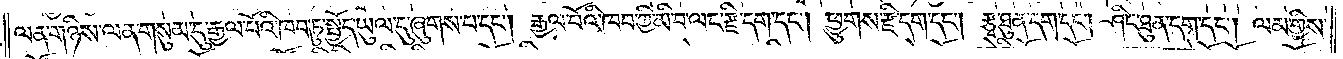ལན་གཉིས་ལན་གསུམ་དུ་རྒྱལ་པོའི་ཁབ་ཏུ་སྤྱོད་ཡུལ་དུ་ཞུགས་པ་དང༌། རྒྱལ་པོའི་ཁབ་ཀྱི་མི་བ་ལང་རྫི་དག་དང༌། ཕྱུགས་རྫི་དག་དང༌། རྩྭ་ཐུན་དག་དང༌། ཤིང་ཐུན་དག་དང༌། ལམ་གྱིས་
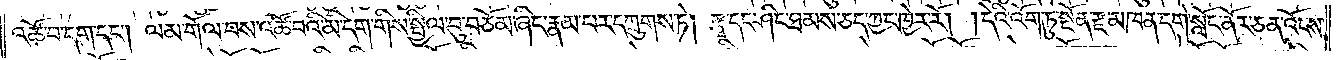འཚོ་བ་དག་དང༌། ལམ་གོལ་བས་འཚོ་བའི་མི་དག་གིས་སྤྱིལ་བུ་བཅོམ་ཞིང་རྣམ་པར་དཀྲུགས་ཏེ། རྩྭ་དང་ཤིང་ཐམས་ཅད་ཀྱང་ཁྱེར་རོ། །དེའི་འོག་ཏུ་སྔོན་རྫ་མཁན་དགེ་སློང་ནོར་ཅན་འོངས་
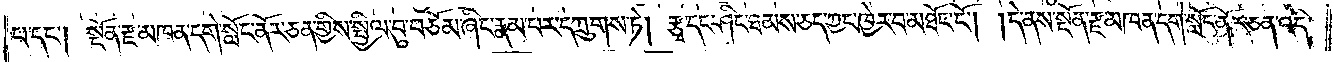པ་དང༌། སྔོན་རྫ་མཁན་དགེ་སློང་ནོར་ཅན་གྱིས་སྤྱིལ་བུ་བཅོམ་ཞིང་རྣམ་པར་དཀྲུགས་ཏེ། རྩྭ་དང་ཤིང་ཐམས་ཅད་ཀྱང་ཁྱེར་བ་མཐོང་ངོ༌། །དེ་ནས་སྔོན་རྫ་མཁན་དགེ་སློང་ནོར་ཅན་འདི་
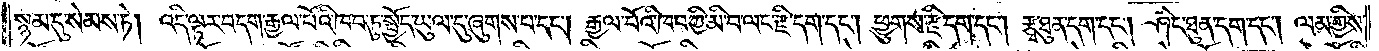སྙམ་དུ་སེམས་ཏེ། འདི་ལྟར་བདག་རྒྱལ་པོའི་ཁབ་ཏུ་སྤྱོད་ཡུལ་དུ་ཞུགས་པ་དང༌། རྒྱལ་པོའི་ཁབ་ཀྱི་མི་བ་ལང་རྫི་དག་དང༌། ཕྱུགས་རྫི་དག་དང༌། རྩྭ་ཐུན་དག་དང༌། ཤིང་ཐུན་དག་དང༌། ལམ་གྱིས་
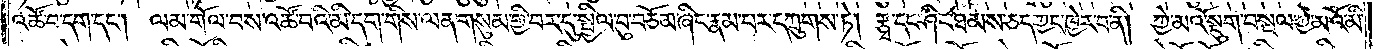འཚོ་བ་དག་དང༌། ལམ་གོལ་བས་འཚོ་བའི་མི་དག་གིས་ལན་གསུམ་གྱི་བར་དུ་སྤྱིལ་བུ་བཅོམ་ཞིང་རྣམ་པར་དཀྲུགས་ཏེ། རྩྭ་དང་ཤིང་ཐམས་ཅད་ཀྱང་ཁྱེར་བ་ནི། ཀྱེ་མའོ་སྡུག་བསྔལ་ཀྱེ་མའོ་མི་
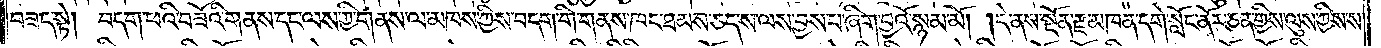བཟང་སྟེ། བདག་ཕའི་བཟོའི་གནས་དང་ལས་ཀྱི་གནས་ལ་མཁས་ཀྱིས་བདག་གི་གནས་ཁང་ཐམས་ཅད་ས་ལས་བྱས་པ་ཞིག་བྱའོ་སྙམ་མོ། །དེ་ནས་སྔོན་རྫ་མཁན་དགེ་སློང་ནོར་ཅན་གྱིས་ལུས་ཀྱིས་ས་
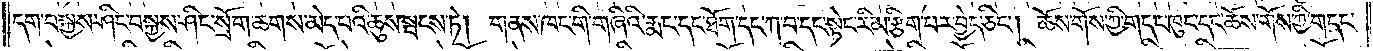དག་བསྐྱས་ཤིང་བསྐྱས་ཤིང་སྲོག་ཆགས་མེད་པའི་ཆུས་སྦངས་ཏེ། གནས་ཁང་གི་གཞིའི་རྨང་དང་ཐོག་དང་ཀ་བ་དང་སྟེང་རིམ་རྩིག་པར་བྱེད་ཅིང༌། ཆོས་གོས་ཀྱི་གདང་ཁུང་དང་ཆོས་གོས་ཀྱི་གདང་
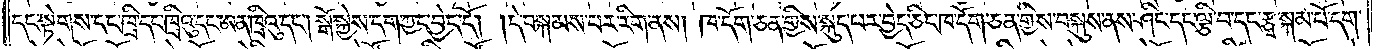དང་སྟེགས་དང་ཁྲི་དང་ཁྲིའུ་དང་ཨན་ཁྲིའུ་དང༌། སྒོ་སྐྱེས་དག་ཀྱང་བྱེད་དོ། །དེ་བསྐམས་པར་རིག་ནས། ཁ་དོག་ཅན་གྱིས་སྐུད་པར་བྱེད་ཅིང་ཁ་དོག་ཅན་གྱིས་བསྐུས་ནས་ཤིང་དང་ལྕི་བ་དང་རྩྭ་སྐམ་པོ་དག་
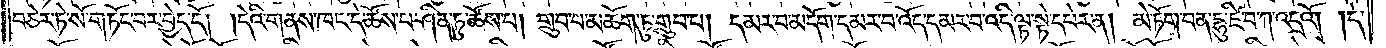བཅེར་ཏེ་སོ་གཏོང་བར་བྱེད་དོ། །དེའི་གནས་ཁང་དེ་ཚོས་པ་ཤིན་ཏུ་ཚོས་པ། གྲུབ་པ་མཆོག་ཏུ་གྲུབ་པ། དམར་བ་མདོག་དམར་བ་འོད་དམར་བ་འདི་ལྟ་སྟེ་དཔེར་ན། མེ་ཏོག་བན་དྷུ་ཛི་བ་ཀ་འདྲའོ། །དེ་
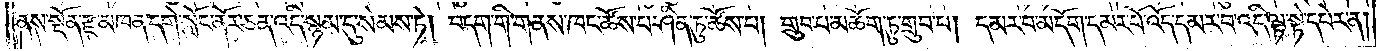ནས་སྔོན་རྫ་མཁན་དགེ་སློང་ནོར་ཅན་འདི་སྙམ་དུ་སེམས་ཏེ། བདག་གི་གནས་ཁང་ཚོས་པ་ཤིན་ཏུ་ཚོས་པ། གྲུབ་པ་མཆོག་ཏུ་གྲུབ་པ། དམར་བ་མདོག་དམར་པོ་འོད་དམར་བ་འདི་ལྟ་སྟེ་དཔེར་ན།
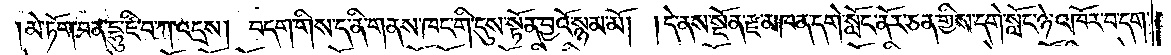།མེ་ཏོག་བན་དྷུ་ཛི་བ་ཀ་འདྲས། བདག་གིས་ད་ནི་གནས་ཁང་གི་དུས་སྟོན་བྱའོ་སྙམ་མོ། །དེ་ནས་སྔོན་རྫ་མཁན་དགེ་སློང་ནོར་ཅན་གྱིས་དགེ་སློང་ཉེ་འཁོར་བ་དག་
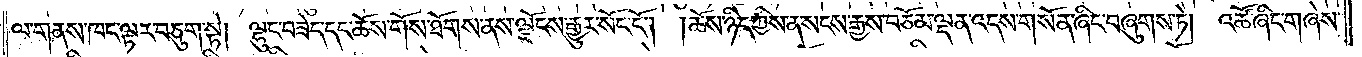ལ་གནས་ཁང་ལྟར་བཅུག་སྟེ། ལྷུང་བཟེད་དང་ཆོས་གོས་ཐོགས་ནས་ལྗོངས་རྒྱུར་སོང་ངོ༌། །ཆོས་ཉིད་ཀྱིས་ན་སངས་རྒྱས་བཅོམ་ལྡན་འདས་གསོན་ཞིང་བཞུགས་ཏེ། འཚོ་ཞིང་གཞེས་
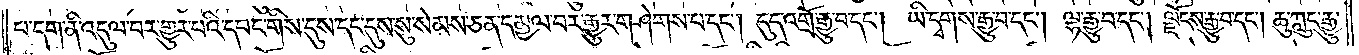པ་དག་ནི་འདུལ་བར་གྱུར་པའི་དབང་གིས་དུས་དང་དུས་སུ་སེམས་ཅན་དམྱལ་བར་རྒྱུར་གཤེགས་པ་དང༌། དུད་འགྲོ་རྒྱུ་བ་དང༌། ཡི་དྭགས་རྒྱུ་བ་དང༌། ལྷ་རྒྱུ་བ་དང༌། ལྗོངས་རྒྱུ་བ་དང༌། ཆུ་ཀླུང་རྒྱུ་
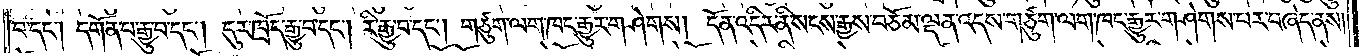བ་དང༌། དགོན་པ་རྒྱུར་བ་དང༌། དུར་ཁྲོད་རྒྱུ་བ་དང༌། རི་རྒྱུ་བ་དང༌། གཙུག་ལག་ཁང་རྒྱུར་གཤེགས། དོན་འདིར་ནི་སངས་རྒྱས་བཅོམ་ལྡན་འདས་གཙུག་ལག་ཁང་རྒྱུར་གཤེགས་པར་བཞེད་ནས་
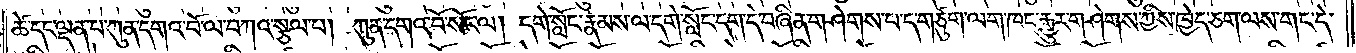ཚེ་དང་ལྡན་པ་ཀུན་དགའ་བོ་ལ་བཀའ་སྩལ་པ། ཀུན་དགའ་བོ་སོང་ལ། དགེ་སློང་རྣམས་ལ་དགེ་སློང་དག་དེ་བཞིན་གཤེགས་པ་ད་གཙུག་ལག་ཁང་རྒྱུར་གཤེགས་ཀྱིས་ཁྱེད་ཅག་ལས་གང་དེ་
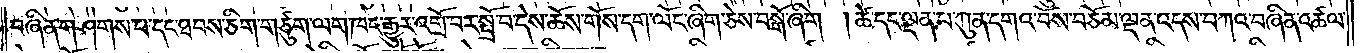བཞིན་གཤེགས་པ་དང་ཐབས་ཅིག་གཙུག་ལག་ཁང་རྒྱུར་འགྲོ་བར་སྤྲོ་བ་དེས་ཆོས་གོས་དག་ལོང་ཞིག་ཅེས་བསྒོ་ཞིག །ཚེ་དང་ལྡན་པ་ཀུན་དགའ་བོས་བཅོམ་ལྡན་འདས་བཀའ་བཞིན་འཚལ་
